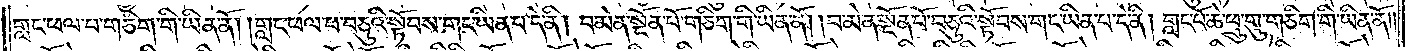གླང་ཕལ་བ་གཅིག་གི་ཡིན་ནོ། །གླང་ཕལ་པ་བཅུའི་སྟོབས་གང་ཡིན་པ་དེ་ནི། བ་མེན་སྔོན་པོ་གཅིག་གི་ཡིན་ནོ། །བ་མེན་སྔོན་པོ་བཅུའི་སྟོབས་གང་ཡིན་པ་དེ་ནི། གླང་པོ་ཆེ་ཕྲུ་གུ་གཅིག་གི་ཡིན་ནོ། །
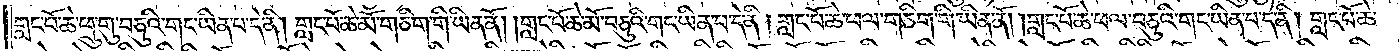གླང་པོ་ཆེ་ཕྲུ་གུ་བཅུའི་གང་ཡིན་པ་དེ་ནི། གླང་པོ་ཆེ་མོ་གཅིག་གི་ཡིན་ནོ། །གླང་པོ་ཆེ་མོ་བཅུའི་གང་ཡིན་པ་དེ་ནི། གླང་པོ་ཆེ་ཕལ་གཅིག་གི་ཡིན་ནོ། གླང་པོ་ཆེ་ཕལ་བཅུའི་གང་ཡིན་པ་དེ་ནི། གླང་པོ་ཆེ་
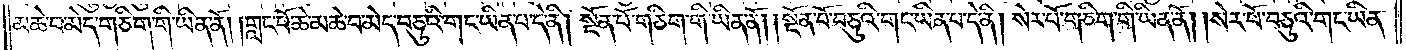མཆེ་བ་མེད་གཅིག་གི་ཡིན་ནོ། གླང་པོ་ཆེ་མཆེ་བ་མེད་བཅུའི་གང་ཡིན་པ་དེ་ནི། སྔོན་པོ་གཅིག་གི་ཡིན་ནོ། །སྔོན་པོ་བཅུའི་གང་ཡིན་པ་དེ་ནི། སེར་པོ་གཅིག་གི་ཡིན་ནོ། །སེར་པོ་བཅུའི་གང་ཡིན་
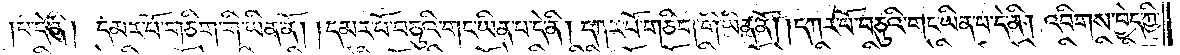།པ་དེ་ནི། དམར་པོ་གཅིག་གི་ཡིན་ནོ། །དམར་པོ་བཅུའི་གང་ཡིན་པ་དེ་ནི། དཀར་པོ་གཅིག་གི་ཡིན་ནོ། །དཀར་པོ་བཅུའི་གང་ཡིན་པ་དེ་ནི། འབིགས་བྱེད་ཀྱི་
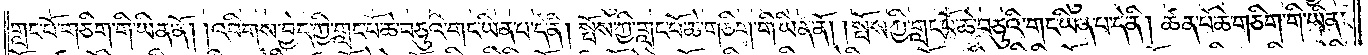གླང་པོ་གཅིག་གི་ཡིན་ནོ། །འབིགས་བྱེད་ཀྱི་གླང་པོ་ཆེ་བཅུའི་གང་ཡིན་པ་དེ་ནི། སྤོས་ཀྱི་གླང་པོ་ཆེ་གཅིག་གི་ཡིན་ནོ། སྤོས་ཀྱི་གླང་པོ་ཆེ་བཅུའི་གང་ཡིན་པ་དེ་ནི། ཚན་པོ་ཆེ་གཅིག་གི་ཡིན་
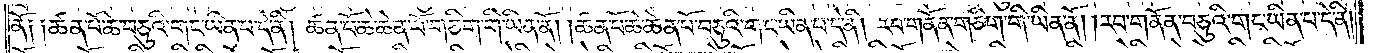ནོ༑ ༑ཚན་པོ་ཆེ་བཅུའི་གང་ཡིན་པ་དེ་ནི། ཚན་པོ་ཆེ་ཆེན་པོ་གཅིག་གི་ཡིན་ནོ། །ཚན་པོ་ཆེ་ཆེན་པོ་བཅུའི་གང་ཡིན་པ་དེ་ནི། རབ་གནོན་གཅིག་གི་ཡིན་ནོ། །རབ་གནོན་བཅུའི་གང་ཡིན་པ་དེ་ནི།
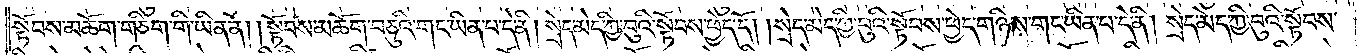སྟོབས་མཆོག་གཅིག་གི་ཡིན་ནོ། །སྟོབས་མཆོག་བཅུའི་གང་ཡིན་པ་དེ་ནི། སྲེད་མེད་ཀྱི་བུའི་སྟོབས་ཕྱེད་དོ། །སྲེད་མེད་ཀྱི་བུའི་སྟོབས་ཕྱེད་གཉིས་གང་ཡིན་པ་དེ་ནི། སྲེད་མེད་ཀྱི་བུའི་སྟོབས་
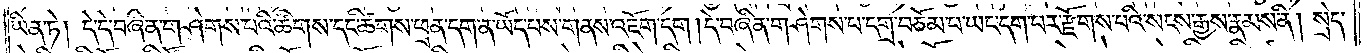ཡིན་ཏེ། དེ་དེ་བཞིན་གཤེགས་པའི་ཚིགས་དང་ཚིགས་ཕྲན་དག་ན་ཡོད་པས་གནས་འཇོག་དག །དེ་བཞིན་གཤེགས་པ་དགྲ་བཅོམ་པ་ཡང་དག་པར་རྫོགས་པའི་སངས་རྒྱས་རྣམས་ནི། སྲེད་
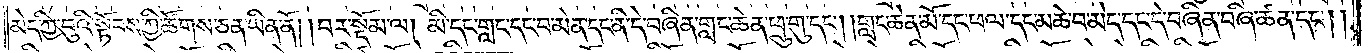མེད་ཀྱི་བུའི་སྟོབས་ཀྱི་ཚོགས་ཅན་ཡིན་ནོ། །བར་སྡོམ་ལ། མི་དང་གླང་དང་བ་མེན་དང་ནི་དེ་བཞིན་གླང་ཆེན་ཕྲུ་གུ་དང༌། །གླང་ཆེན་མོ་དང་ཕལ་དང་མཆེ་བ་མེད་དང་དེ་བཞིན་བཞི་ཚན་དང༌། །
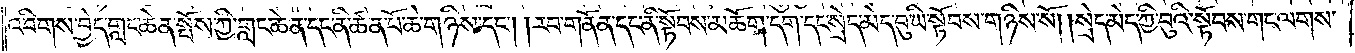འབིགས་བྱེད་གླང་ཆེན་སྤོས་ཀྱི་གླང་ཆེན་དང་ནི་ཚན་པོ་ཆེ་གཉིས་དང༌། །རབ་གནོན་དང་ནི་སྟོབས་མཆོག་དག་དང་སྲེད་མེད་བུ་ཡི་སྟོབས་གཉིས་སོ། །སྲེད་མེད་ཀྱི་བུའི་སྟོབས་གང་ལགས་
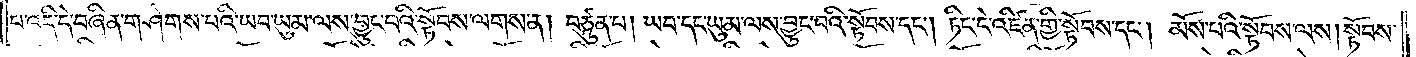པ་འདི་དེ་བཞིན་གཤེགས་པའི་ཡབ་ཡུམ་ལས་བྱུང་བའི་སྟོབས་ལགས་ན། བཙུན་པ། ཡབ་དང་ཡུམ་ལས་བྱུང་བའི་སྟོབས་དང༌། ཏིང་ངེ་འཛིན་གྱི་སྟོབས་དང༌། མོས་པའི་སྟོབས་ལས། སྟོབས་
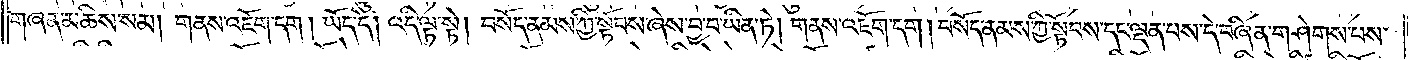གཞན་མཆིས་སམ། གནས་འཇོག་དག། ཡོད་དེ། འདི་ལྟ་སྟེ། བསོད་ནམས་ཀྱི་སྟོབས་ཞེས་བྱ་བ་ཡིན་ཏེ། གནས་འཇོག་དག །བསོད་ནམས་ཀྱི་སྟོབས་དང་ལྡན་པས་དེ་བཞིན་གཤེགས་པས་
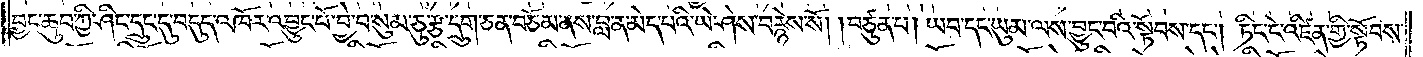བྱང་ཆུབ་ཀྱི་ཤིང་དྲུང་དུ་བདུད་འཁོར་འབྱུང་པོ་བྱེ་བ་སུམ་ཅུ་རྩ་དྲུག་ཅན་བཅོམ་ནས་བླ་ན་མེད་པའི་ཡེ་ཤེས་བརྙེས་སོ། །བཙུན་པ། ཡབ་དང་ཡུམ་ལས་བྱུང་བའི་སྟོབས་དང༌། ཏིང་ངེ་འཛིན་གྱི་སྟོབས་
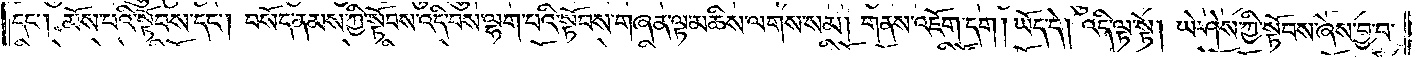དང༌། མོས་པའི་སྟོབས་དང༌། བསོད་ནམས་ཀྱི་སྟོབས་འདི་བས་ལྷག་པའི་སྟོབས་གཞན་ལྟ་མཆིས་ལགས་སམ། གནས་འཇོག་དག །ཡོད་དེ། འདི་ལྟ་སྟེ། ཡེ་ཤེས་ཀྱི་སྟོབས་ཞེས་བྱ་བ་
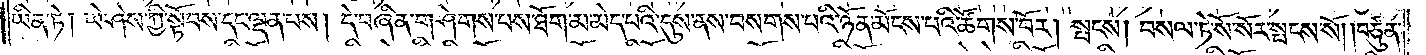ཡིན་ཏེ། ཡེ་ཤེས་ཀྱི་སྟོབས་དང་ལྡན་པས། དེ་བཞིན་གཤེགས་པས་ཐོག་མ་མེད་པའི་དུས་ནས་བསགས་པའི་ཉོན་མོངས་པའི་ཚོགས་བོར། སྤངས་།བསལ་ཏེ་སོ་སོར་སྤངས་སོ། །བཙུན་
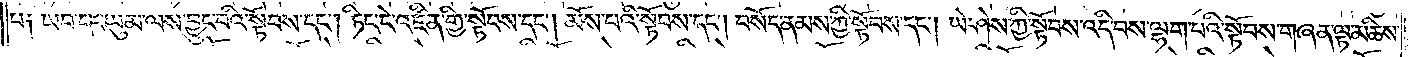པ༑ ཡབ་དང་ཡུམ་ལས་བྱུང་བའི་སྟོབས་དང༌། ཏིང་ངེ་འཛིན་གྱི་སྟོབས་དང༌། མོས་པའི་སྟོབས་དང༌། བསོད་ནམས་ཀྱི་སྟོབས་དང༌། ཡེ་ཤེས་ཀྱི་སྟོབས་འདི་བས་ལྷག་པའི་སྟོབས་གཞན་ལྟ་མཆིས་
